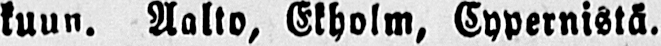kuun. Aalto, Ekholm, Cypernistä.
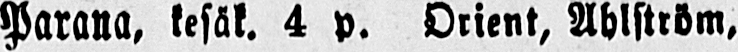Parana, kesäk. 4 p. Orient, Ahlström,
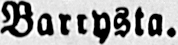Barrysta.
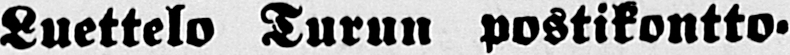Luettelo Turun postikontto-
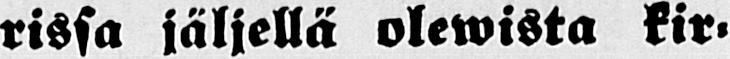rissa jäljellä olewista kir-
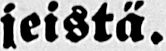jeistä.
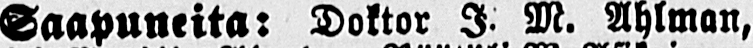Saapuneita: Doktor I. M. Ahlman,
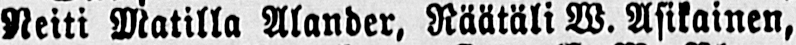Neiti Matilla Alander. Räätäli W. Asikainen,
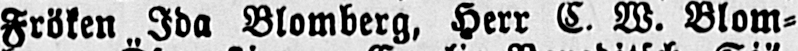Fröken Ida Blomberg, Herr C. W. Blom-
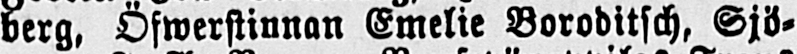berg, Öswerstinnan Emelie Boroditsch, Sjö-
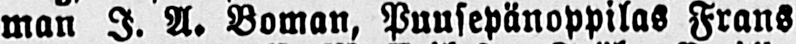man I. A. Boman, Puusepänoppilas Frans
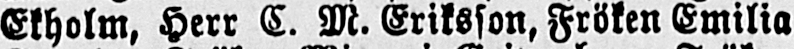Ekholm, Herr C. M. Eriksson, Fröken Emilia
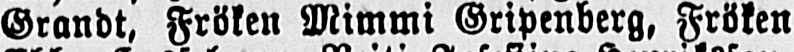Grandt, Fröken Mimmi Gripenberg, Fröken
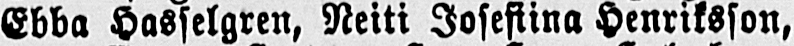Ebba Hasselgren, Neiti Josefiina Henriksson,
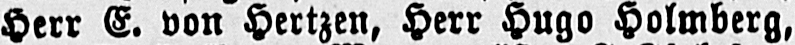Herr E. von Hertzen, Herr Hugo Holmberg,
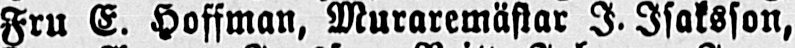Fru E. Hoffman, Muraremästar I. Isaksson,
